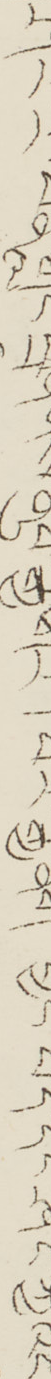ཤར་རི་པིན་གླིང་ཕྲན་ནས་ནུབ་རྒྱ་གར། བར་རྒྱ་ནག་བྱང་བོད་དང་ཤིང་ཀྱི་
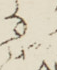ཤར་
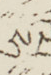ལྷོ་
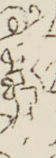ཞི་མཚོར་
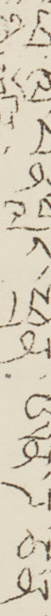ཕི་ལི་པིན་གླིང་ཕྲན་ཨིན་ཌོ་ཅིན་
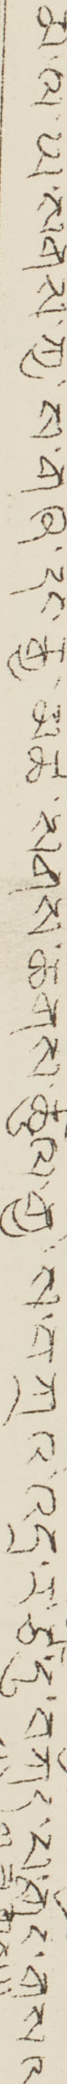མ་ལ་ཡ་སོགས་ཀྱི་ས་གཞི་དང་རྒྱ་མཚོ་སོགས་ཆགས་ཚུལ་གྱི་ས་བཀྲིའི་འདྲ་རི་ཙ་དུ་བཀོད་པ་གོང་གསལ་
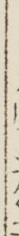ལ་གཟིགས།།
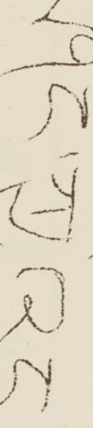ཤིང་ཀྱིའང་
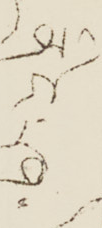ནིང་ཤ་
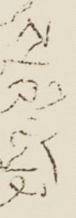སུའི་སྭོན་
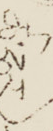ཚ་ཧར
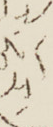རེ་ཧར
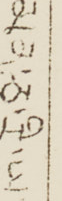མན་ཅུ་རི་ཡ
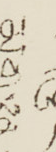མུག་དན་
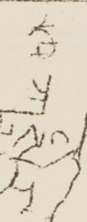འཀསྨིར་
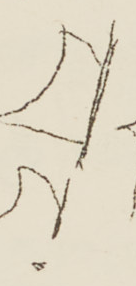བོད་
